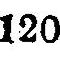120
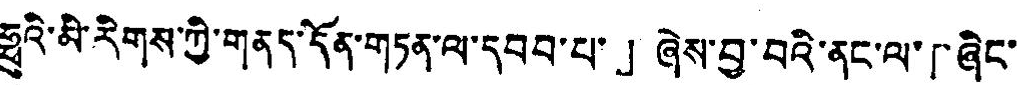ཧྥུའི་མི་རིགས་ཀྱི་གནད་དོན་གཏན་ལ་དབབ་པ་」ཞེས་བྱ་བའི་ནང་ལ་「ཞིང་
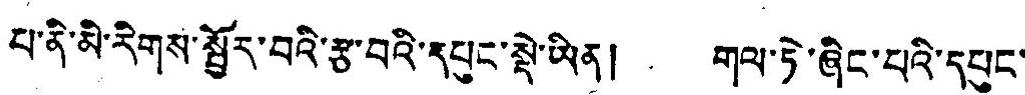པ་ནི་མི་རིགས་སྦྱོར་བའི་རྩ་བའི་དཔུང་སྡེ་ཡིན། གལ་ཏེ་ཞིང་པའི་དཔུང་
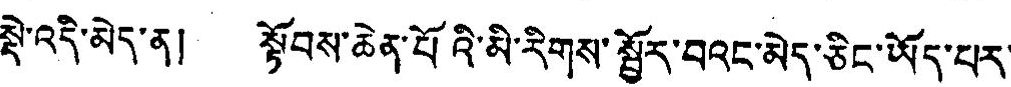སྡེ་འདི་མེད་ན། སྟོབས་ཆེན་པོའི་མི་རིགས་སྦྱོར་བའང་མེད་ཅིང་ཡོད་པར་
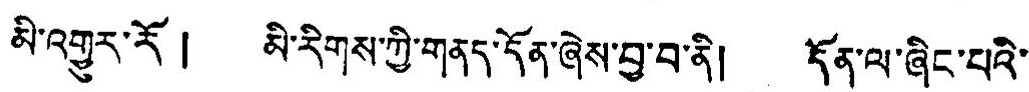མི་འགྱུར་རོ། མི་རིགས་ཀྱི་གནད་དོན་ཞེས་བྱ་བ་ནི། དོན་ལ་ཞིང་པའི་
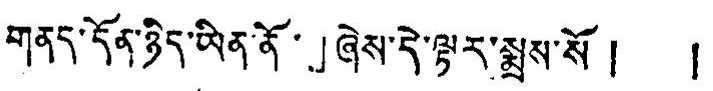གནད་དོན་ཉིད་ཡིན་ནོ་」ཞེས་དེ་ལྟར་སྨྲས་སོ། །
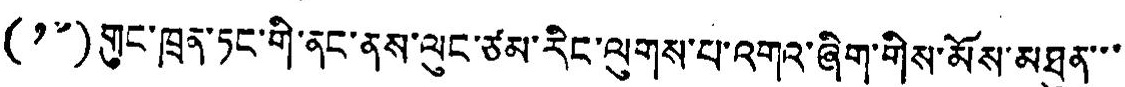(༡༧)གུང་ཁྲན་ཏང་གི་ནང་ནས་ལུང་ཙམ་རིང་ལུགས་པ་འགའ་ཞིག་གིས་མོས་མཐུན་་་
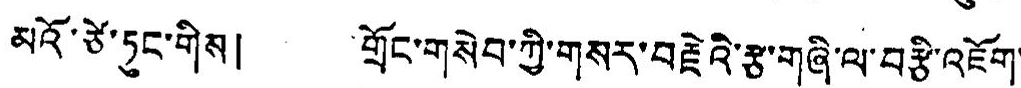མའོ་ཙེ་ཏུང་གིས། གྲོང་གསེབ་ཀྱི་གསར་བརྗེའི་རྩ་གཞི་ལ་བརྩི་འཇོག་
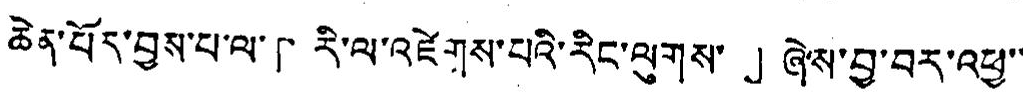ཆེན་པོར་བྱས་བ་ལ་「རི་ལ་འཛེགས་པའི་རིང་ལུགས་」ཞེས་བྱ་བར་འཕྱ་་
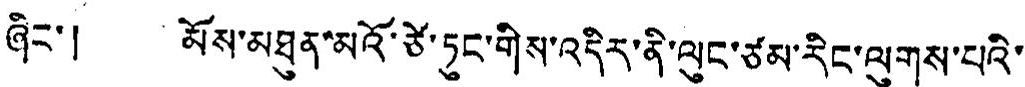ཞིང་། མོས་མཐུན་མའོ་ཙེ་ཏུང་གིས་འདིར་ནི་ལུང་ཙམ་རིང་ལུགས་པའི་
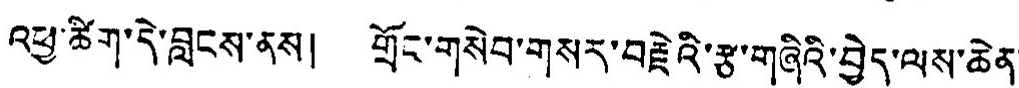འཕྱ་ཚིག་དེ་བླངས་ནས། གྲོང་གསེབ་གསར་བརྗེའི་རྩ་གཞིའི་བྱེད་ལས་ཆེན་
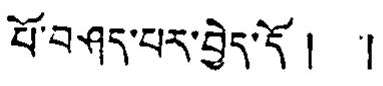པོ་བཤད་པར་བྱེད་དོ། །
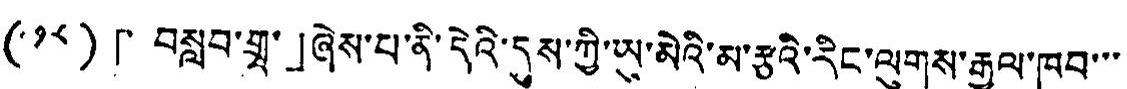(༡༨)「བསླབ་གྲྭ་」ཞེས་པ་ནི་དེའི་དུས་ཀྱི་ཡུ་མེའི་མ་རྩའི་རིང་ལུགས་རྒྱལ་ཁབ་་་
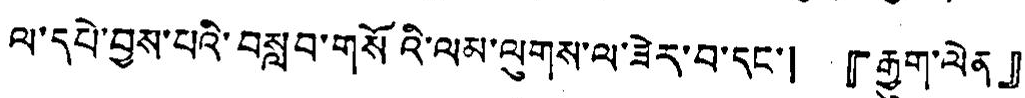ལ་དཔེ་བྱས་པའི་བསླབ་གསོའི་ལམ་ལུགས་ལ་ཟེར་བ་དནག་། 『རྒྱུག་ལེན』
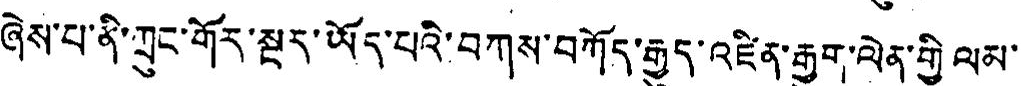ཞེས་པ་ནི་ཀྲུང་གོར་སྔར་ཡོད་པའི་བཀས་བཀོད་རྒྱུད་འཛིན་རྒྱུག་ལེན་གྱི་ལམ་
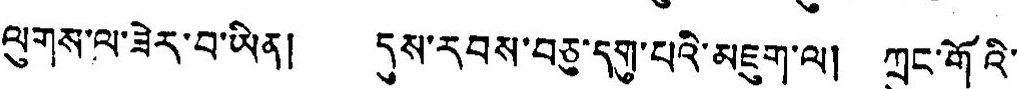ལུགས་ལ་ཟེར་བ་ཡིན། དུས་རབས་བཅུ་དགུ་པའི་མཇུག་ལ། ཀྲུང་གོའི་
